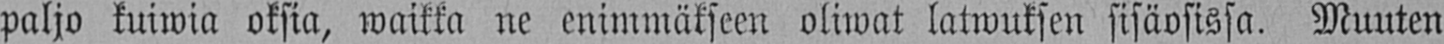paljo kuiwia oksia, waikka ne enimmäkseen oliwat latwuksen sisäosissa. Muuten
